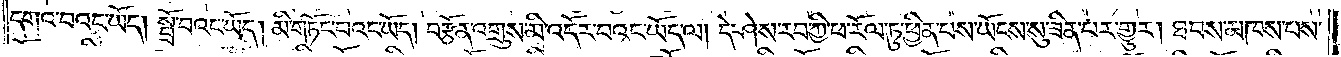དགའ་བའང་ཡོད། སྤྲོ་བའང་ཡོད། མི་གཏོང་བའང་ཡོད། བརྩོན་འགྲུས་མི་འདོར་བའང་ཡོད་ལ། དེ་ཤེས་རབ་ཀྱི་ཕ་རོལ་ཏུ་ཕྱིན་པས་ཡོངས་སུ་ཟིན་པར་གྱུར། ཐབས་མཁས་པས་
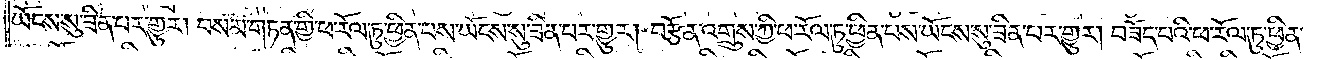ཡོངས་སུ་ཟིན་པར་གྱུར། བསམ་གཏན་གྱི་ཕ་རོལ་ཏུ་ཕྱིན་པས་ཡོངས་སུ་ཟིན་པར་གྱུར། བརྩོན་འགྲུས་ཀྱི་ཕ་རོལ་ཏུ་ཕྱིན་པས་ཡོངས་སུ་ཟིན་པར་གྱུར། བཟོད་པའི་ཕ་རོལ་ཏུ་ཕྱིན་
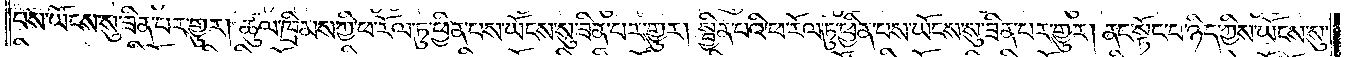པས་ཡོངས་སུ་ཟིན་པར་གྱུར། ཚུལ་ཁྲིམས་ཀྱི་ཕ་རོལ་ཏུ་ཕྱིན་པས་ཡོངས་སུ་ཟིན་པར་གྱུར། སྦྱིན་པའི་ཕ་རོལ་ཏུ་ཕྱིན་པས་ཡོངས་སུ་ཟིན་པར་གྱུར། ནང་སྟོང་པ་ཉིད་ཀྱིས་ཡོངས་སུ་
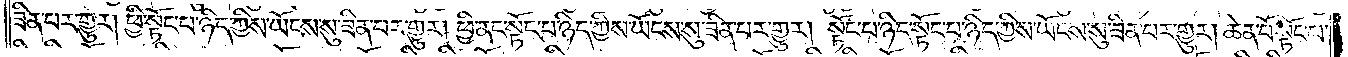ཟིན་པར་གྱུར། ཕྱི་སྟོང་པ་ཉིད་ཀྱིས་ཡོངས་སུ་ཟིན་པར་གྱུར། ཕྱི་ནང་སྟོང་པ་ཉིད་ཀྱིས་ཡོངས་སུ་ཟིན་པར་གྱུར། སྟོང་པ་ཉིད་སྟོང་པ་ཉིད་ཀྱིས་ཡོངས་སུ་ཟིན་པར་གྱུར། ཆེན་པོ་སྟོང་པ་
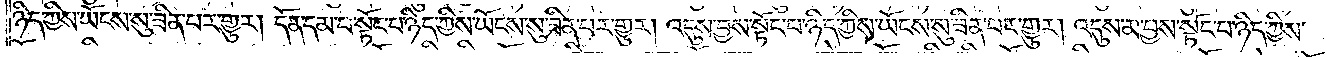ཉིད་ཀྱིས་ཡོངས་སུ་ཟིན་པར་གྱུར། དོན་དམ་པ་སྟོང་པ་ཉིད་ཀྱིས་ཡོངས་སུ་ཟིན་པར་གྱུར། འདུས་བྱས་སྟོང་པ་ཉིད་ཀྱིས་ཡོངས་སུ་ཟིན་པར་གྱུར། འདུས་མ་བྱས་སྟོང་པ་ཉིད་ཀྱིས་
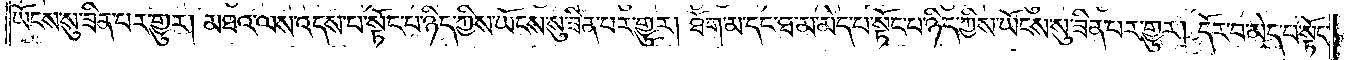ཡོངས་སུ་ཟིན་པར་གྱུར། མཐའ་ལས་འདས་པ་སྟོང་པ་ཉིད་ཀྱིས་ཡོངས་སུ་ཟིན་པར་གྱུར། ཐོག་མ་དང་ཐ་མ་མེད་པ་སྟོང་པ་ཉིད་ཀྱིས་ཡོངས་སུ་ཟིན་པར་གྱུར། དོར་བ་མེད་པ་སྟོང་
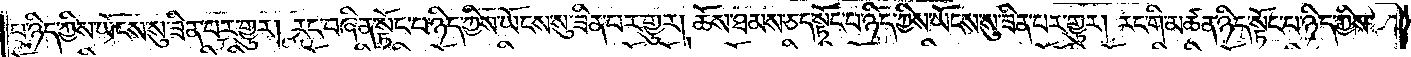པ་ཉིད་ཀྱིས་ཡོངས་སུ་ཟིན་པར་གྱུར། རང་བཞིན་སྟོང་པ་ཉིད་ཀྱིས་ཡོངས་སུ་ཟིན་པར་གྱུར། ཆོས་ཐམས་ཅད་སྟོང་པ་ཉིད་ཀྱིས་ཡོངས་སུ་ཟིན་པར་གྱུར། རང་གི་མཚན་ཉིད་སྟོང་པ་ཉིད་ཀྱིས་
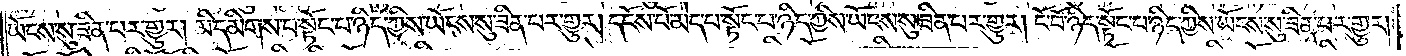ཡོངས་སུ་ཟིན་པར་གྱུར། མི་དམིགས་པ་སྟོང་པ་ཉིད་ཀྱིས་ཡོངས་སུ་ཟིན་པར་གྱུར། དངོས་པོ་མེད་པ་སྟོང་པ་ཉིད་ཀྱིས་ཡོངས་སུ་ཟིན་པར་གྱུར། ངོ་བོ་ཉིད་སྟོང་པ་ཉིད་ཀྱིས་ཡོངས་སུ་ཟིན་པར་གྱུར།
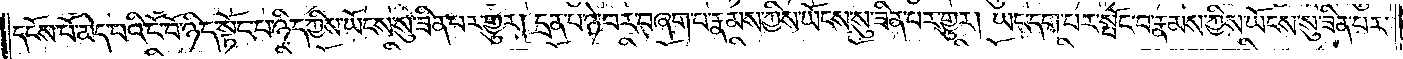དངོས་པོ་མེད་པའི་ངོ་བོ་ཉིད་སྟོང་པ་ཉིད་ཀྱིས་ཡོངས་སུ་ཟིན་པར་གྱུར། དྲན་པ་ཉེ་བར་བཞག་པ་རྣམས་ཀྱིས་ཡོངས་སུ་ཟིན་པར་གྱུར། ཡང་དག་པར་སྤོང་བ་རྣམས་ཀྱིས་ཡོངས་སུ་ཟིན་པར་
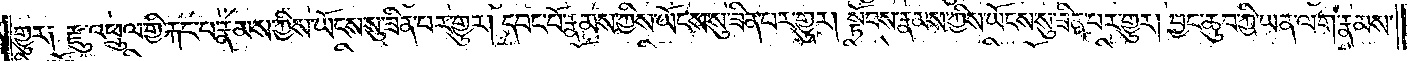གྱུར། རྫུ་འཕྲུལ་གྱི་རྐང་པ་རྣམས་ཀྱིས་ཡོངས་སུ་ཟིན་པར་གྱུར། དབང་པོ་རྣམས་ཀྱིས་ཡོངས་སུ་ཟིན་པར་གྱུར། སྟོབས་རྣམས་ཀྱིས་ཡོངས་སུ་ཟིན་པར་གྱུར། བྱང་ཆུབ་ཀྱི་ཡན་ལག་རྣམས་
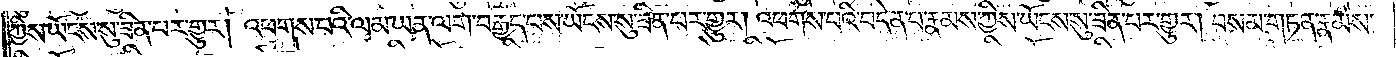ཀྱིས་ཡོངས་སུ་ཟིན་པར་གྱུར། འཕགས་པའི་ལམ་ཡན་ལག་བརྒྱད་པས་ཡོངས་སུ་ཟིན་པར་གྱུར། འཕགས་པའི་བདེན་པ་རྣམས་ཀྱིས་ཡོངས་སུ་ཟིན་པར་གྱུར། བསམ་གཏན་རྣམས་
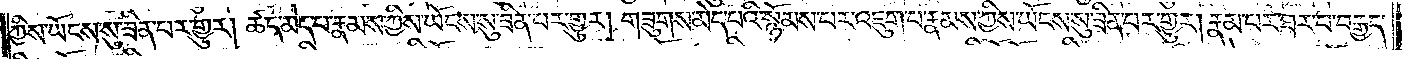ཀྱིས་ཡོངས་སུ་ཟིན་པར་གྱུར། ཚད་མེད་རྣམས་ཀྱིས་ཡོངས་སུ་ཟིན་པར་གྱུར། གཟུགས་མེད་པའི་སྙོམས་པར་འཇུག་པ་རྣམས་ཀྱིས་ཡོངས་སུ་ཟིན་པར་གྱུར། རྣམ་པ་ཐར་པ་བརྒྱད་
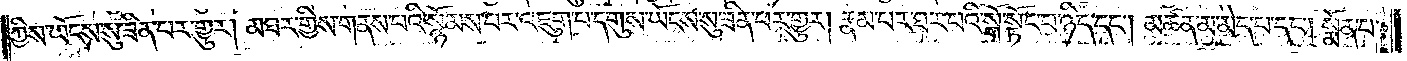ཀྱིས་ཡོངས་སུ་ཟིན་པར་གྱུར། མཐར་གྱིས་གནས་པའི་སྙོམས་པར་འཇུག་པ་དགུས་ཡོངས་སུ་ཟིན་པར་གྱུར། རྣམ་པར་ཐར་པའི་སྒོ་སྟོང་པ་ཉིད་དང༌། མཚན་མ་མེད་པ་དང༌། སྨོན་པ་
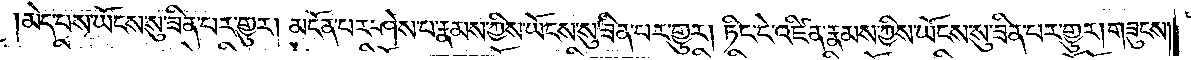མེད་པས་ཡོངས་སུ་ཟིན་པར་གྱུར། མངོན་པར་ཤེས་པ་རྣམས་ཀྱིས་ཡོངས་སུ་ཟིན་པར་གྱུར། ཏིང་ངེ་འཛིན་རྣམས་ཀྱིས་ཡོངས་སུ་ཟིན་པར་གྱུར། གཟུངས་
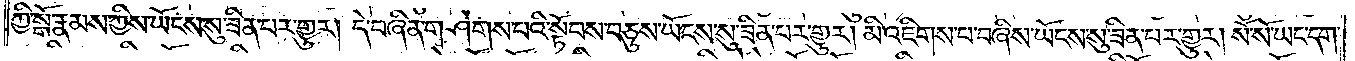ཀྱི་སྒོ་རྣམས་ཀྱིས་ཡོངས་སུ་ཟིན་པར་གྱུར། དེ་བཞིན་གཤེགས་པའི་སྟོབས་བཅུས་ཡོངས་སུ་ཟིན་པར་གྱུར། མི་འཇིགས་པ་བཞིས་ཡོངས་སུ་ཟིན་པར་གྱུར། སོ་སོ་ཡང་དག་
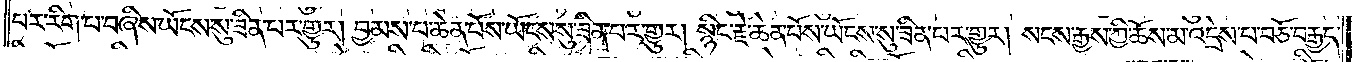པར་རིག་པ་བཞིས་ཡོངས་སུ་ཟིན་པར་གྱུར། བྱམས་པ་ཆེན་པོས་ཡོངས་སུ་ཟིན་པར་གྱུར། སྙིང་རྗེ་ཆེན་པོས་ཡོངས་སུ་ཟིན་པར་གྱུར། སངས་རྒྱས་ཀྱི་ཆོས་མ་འདྲེས་པ་བཅོ་བརྒྱད་
